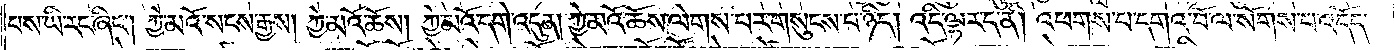པས་ཡི་རང་ཞིང༌། ཀྱེ་མའོ་སངས་རྒྱས། ཀྱེ་མའོ་ཆོས། ཀྱེ་མའོ་དགེ་འདུན། ཀྱེ་མའོ་ཆོས་ལེགས་པར་གསུངས་པ་ཉིད། འདི་ལྟར་ད་ནི། འཕགས་པ་དགའ་བོ་ལ་སོགས་པ་འདོད་
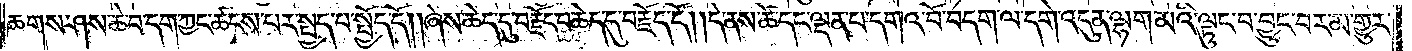ཆགས་ཤས་ཆེ་བ་དག་ཀྱང་ཚངས་པར་སྤྱད་པ་སྤྱོད་དོ། །ཞེས་ཆེད་དུ་བརྗོད་པ་ཆེད་དུ་བརྗོད་དོ། །དེ་ནས་ཚེ་དང་ལྡན་པ་དགའ་བོ་བདག་ལ་དགེ་འདུན་ལྷག་མའི་ལྟུང་བ་བྱུང་བར་མ་གྱུར་
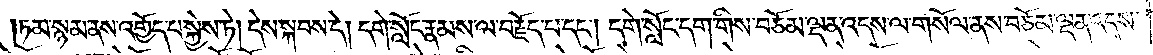ཏམ་སྙམ་ནས་འགྱོད་པ་སྐྱེས་ཏེ། དེས་སྐབས་དེ། དགེ་སློང་རྣམས་ལ་བརྗོད་པ་དང༌། དགེ་སློང་དག་གིས་བཅོམ་ལྡན་འདས་ལ་གསོལ་ནས་བཅོམ་ལྡན་འདས་
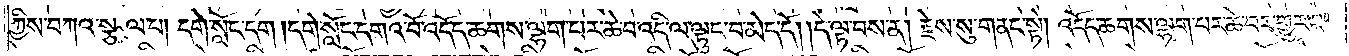ཀྱིས་བཀའ་སྩལ་པ། དགེ་སློང་དག །དགེ་སློང་དགའ་བོ་འདོད་ཆགས་ལྷག་པར་ཆེ་བ་འདི་ལ་ལྟུང་བ་མེད་དོ། །དེ་ལྟ་བས་ན། རྗེས་སུ་གནང་སྟེ། འདོད་ཆགས་ལྷག་པར་ཆེ་བར་གྱུར་པ་
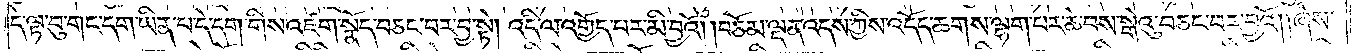དེ་ལྟ་བུ་གང་དག་ཡིན་པ་དེ་དག་གིས་འཛག་སྣོད་བཅང་བར་བྱ་སྟེ། འདི་ལ་འགྱོད་པར་མི་བྱའོ། །བཅོམ་ལྡན་འདས་ཀྱིས་འདོད་ཆགས་ལྷག་པར་ཆེ་བས་སྒེའུ་བཅང་བར་བྱའོ། །ཞེས་
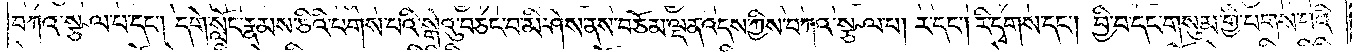བཀའ་སྩལ་པ་དང༌། དགེ་སློང་རྣམས་ཅིའི་པགས་པའི་སྒེའུ་བཅང་བ་མི་ཤེས་ནས་བཅོམ་ལྡན་འདས་ཀྱིས་བཀའ་སྩལ་པ། ར་དང༌། རི་དྭགས་དང༌། བྱི་བ་དང་གསུམ་གྱི་པགས་པའི་
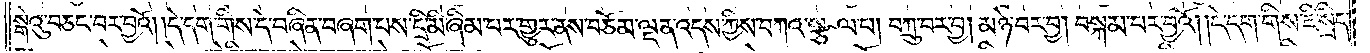སྒེའུ་བཅང་བར་བྱའོ། །དེ་དག་གིས་དེ་བཞིན་བཞག་པས་དྲི་མི་ཞིམ་པར་གྱུར་ནས་བཅོམ་ལྡན་འདས་ཀྱིས་བཀའ་སྩལ་པ། བཀྲུ་བར་བྱ། མཉེ་བར་བྱ། བསྐམ་པར་བྱའོ། །དེ་དག་གིས་ཇི་སྲིད་
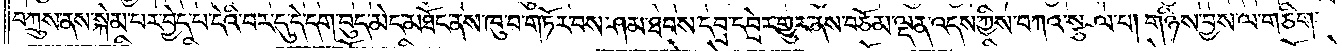བཀྲུས་ནས་སྐེམ་པར་བྱེད་པ་དེའི་བར་དུ་དེ་དག་བུད་མེད་མཐོང་ནས་ཁུ་བ་གཏོར་བས་ཤམ་ཐབས་དབྲ་དབྲེར་གྱུར་ནས་བཅོམ་ལྡན་འདས་ཀྱིས་བཀའ་སྩལ་པ། གཉིས་བྱས་ལ་གཅིག་
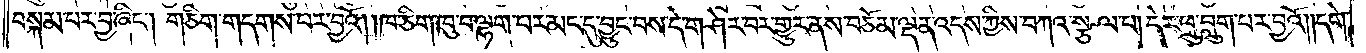བསྐམ་པར་བྱ་ཞིང༌། གཅིག་གདགས་པར་བྱའོ། །ཁ་ཅིག་ཁུ་བ་ལྷག་པར་མང་དུ་བྱུང་བས་དེ་གཤེར་བར་གྱུར་ནས་བཅོམ་ལྡན་འདས་ཀྱིས་བཀའ་སྩལ་པ། དེར་ཕྲུ་བླུག་པར་བྱའོ༎དགེ་
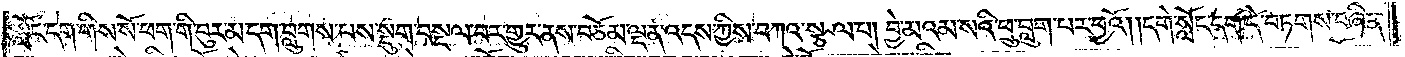སློང་དག་གིས་སོ་ཕག་གི་བུར་མ་དག་བླུགས་པས་སྡུག་བསྔལ་བར་གྱུར་ནས་བཅོམ་ལྡན་འདས་ཀྱིས་བཀའ་སྩལ་པ། བྱེ་མའམ་སའི་ཕྲུ་བླུག་པར་བྱའོ༎དགེ་སློང་དག་དེ་བཏགས་བཞིན་
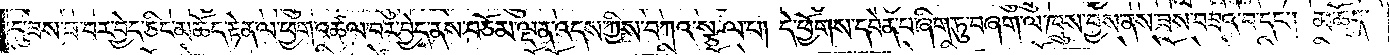དུ་ཟས་ཟ་བར་བྱེད་ཅིང་མཆོད་རྟེན་ལ་ཕྱག་འཚལ་བར་བྱེད་ནས་བཅོམ་ལྡན་འདས་ཀྱིས་བཀའ་སྩལ་པ། དེ་ཕྱོགས་དབེན་པ་ཞིག་ཏུ་བཞག་ལ་ཁྲུས་བྱས་ནས་ཟས་བཟའ་བ་དང༌། མཆོད་
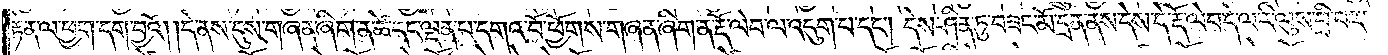རྟེན་ལ་ཕྱག་དག་བྱའོ། །དེ་ནས་དུས་གཞན་ཞིག་ན་ཚེ་དང་ལྡན་པ་དགའ་བོ་ཕྱོགས་གཞན་ཞིག་ན་རྡོ་ལེབ་ལ་འདུག་པ་དང༌། དེས་ཤིན་ཏུ་བཟང་མོ་དྲན་ནས་དེས་དེ་རྡོ་ལེབ་དེ་ལ་རི་ལུས་བྲི་བར་
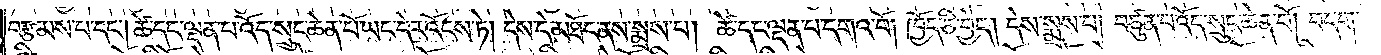བརྩམས་པ་དང༌། ཚེ་དང་ལྡན་པ་འོད་སྲུང་ཆེན་པོ་ཡང་དེར་འོངས་ཏེ། དེས་དེ་མཐོང་ནས་སྨྲས་པ། ཚེ་དང་ལྡན་པ་དགའ་བོ། ཁྱོད་ཅི་བྱེད། དེས་སྨྲས་པ། བཙུན་པ་འོད་སྲུང་ཆེན་པོ། བདག་
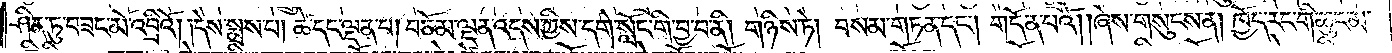ཤིན་ཏུ་བཟང་མོ་འབྲིའོ། །དེས་སྨྲས་པ། ཚེ་དང་ལྡན་པ། བཅོམ་ལྡན་འདས་ཀྱིས་དགེ་སློང་གི་བྱ་བ་ནི། གཉིས་ཏེ། བསམ་གཏན་དང༌། གདོན་པའོ། །ཞེས་གསུངས་ན། ཁྱོད་རང་གི་ཆུང་མ་
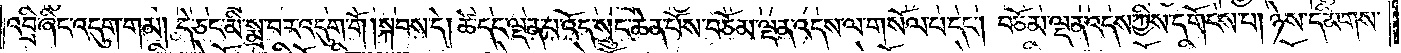འབྲི་ཞིང་འདུག་གམ། དེ་ཅང་མི་སྨྲ་བར་འདུག་གོ །སྐབས་དེ། ཚེ་དང་ལྡན་པ་འོད་སྲུང་ཆེན་པོས་བཅོམ་ལྡན་འདས་ལ་གསོལ་པ་དང༌། བཅོམ་ལྡན་འདས་ཀྱིས་དགོངས་པ། ཉེས་དམིགས་
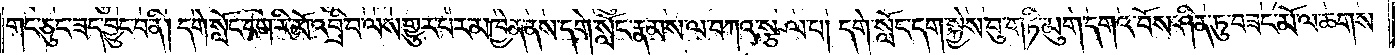གང་ཅུང་ཟད་བྱུང་བ་ནི། དགེ་སློང་དག་རི་མོ་འབྲི་བ་ལས་གྱུར་པར་མཁྱེན་ནས་དགེ་སློང་རྣམས་ལ་བཀའ་སྩལ་པ། དགེ་སློང་དག་སྐྱེས་བུ་གཏི་མུག་དགའ་བོས་ཤིན་ཏུ་བཟང་མོ་ལ་ཆགས་
